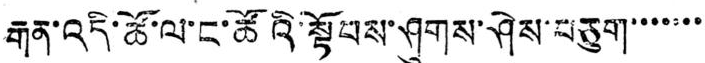རྒན་འདི་ཚོ་ལ་ང་ཚོའི་སྟོབས་ཤུགས་ཤེས་བཅུག་་་་་་་
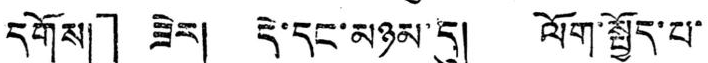དགོས།」 ཟེར། དེ་དང་མཉམ་དུ། ལོག་སྤྱོད་པ་
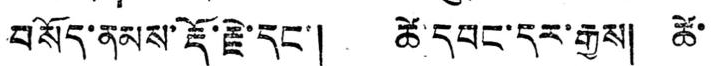བསོད་ནམས་རྡོ་རྗེ་དང་། ཚེ་དབང་དར་རྒྱས། ཚེ་
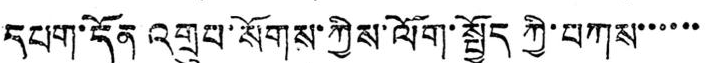དཔག་དོན འགྲུབ་སོགས་ཀྱིས་ལོག་སྤྱོད ཀྱི་བཀས་་་་་་
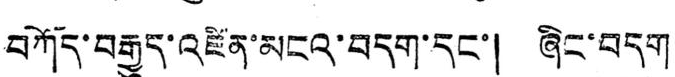བཀོད་བརྒྱུད་འཛིན་མངའ་བདག་དང་། ཞིང་བདག
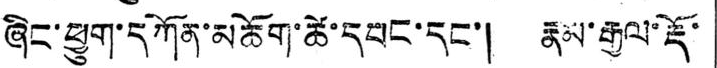ཞིང་ཕྱུག་དཀོན་མཆོག་ཚེ་དབང་དང་། རྣམ་རྒྱལ་རྡོ་
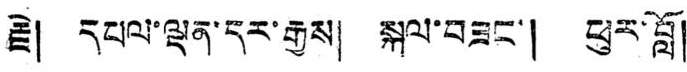རྗེ། དཔལ་ལྡན་དར་རྒྱས། སྐལ་བཟང་། ཕུར་བློ།
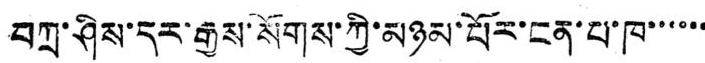བཀྲ་ཤིས་དར་རྒྱས་སོགས་ཀྱི་མཉམ་པོར་ངན་པ་ཁ་་་་་་
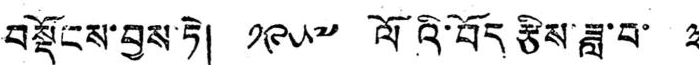བསྡོངས་བྱས་ཏེ། ༡༩༥༧ ལོའི་བོད རྩིས་ཟླ་བ་ ༣
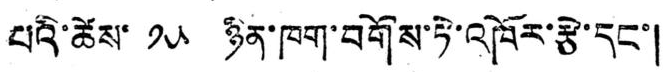པའི་ཚེས་ ༡༥ ཉིན་ཁག་བགོས་ཏེ་འཁོར་རྩེ་དང་།
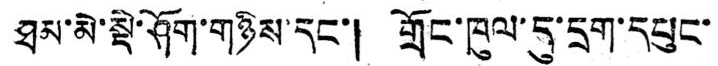ཐམ་མེ་སྡེ་ཤོག་གཉིས་དང་། གྲོང་ཁུལ་དུ་དྲག་དཔུང་
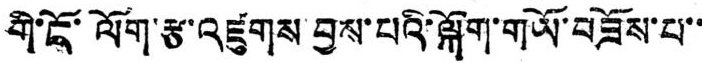གི་ངོ་ལོག་རྩ་འཛུགས་བྱས་པའི་ལྐོག་གཡོ་བཟོས་པ་་
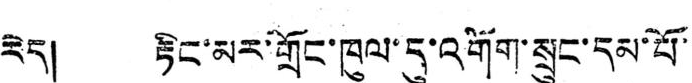རེད། རྟིང་མར་གྲོང་ཁུལ་དུ་འགོག་སྲུང་དམ་པོ་་
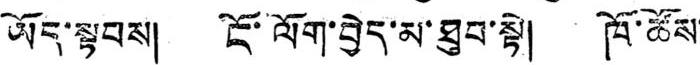ཡོད་སྟབས། ངོ་ལོག་བྱེད་མ་ཐུབ་སྟེ། ཁོ་ཚོས་
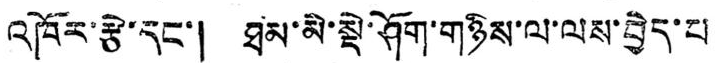འཁོར་རྩེ་དང་། ཐམ་མེ་སྡེ་ཤོག་གཉིས་ལ་ལས་བྱེད་པ
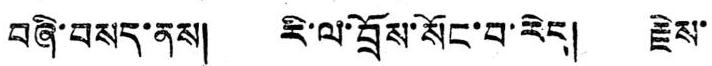བཞི་བསད་ནས། རི་ལ་བྲོས་སོང་བ་རེད། རྗེས་
